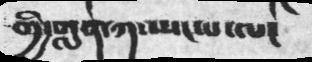གྱི་གླན་ཀ་ཡང་པ་ལ།
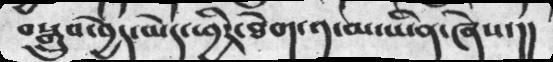བསྒྲུབ་བྱེད་མེད་ཕྱིར་ཐེག་༡་མ་ཡིན་ཞེས་།།
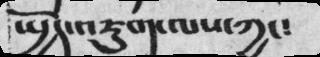སྤྱོད་འཇུག་ལས་ཀྱང༴
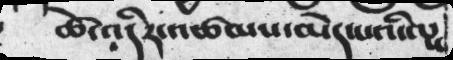ཚེ་འདིར་འཚམས་མེད་པའི་ལས
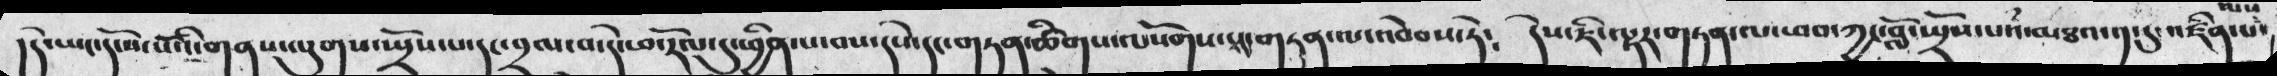།དེ་ཡང་དངོས་པོའི་གནས་ལུགས་ཡྲོས་པ་དང་བྲལ་བ་དེ་ཕ་རོལ་དུ་ཕྱིན་པ་བས་དཔེ་དང་གཏན་ཚིགས་ལསོགས་པས་གཏན་ལ་འབེབས་ཏེ༴   དེས་ཇི་ལྟར་གཏན་ལ་ཕབ་ཀྱང་བློ་ཡྲོས་པའཾ་མཐའ་༡་དུ་འཛིན་པ་ལས་
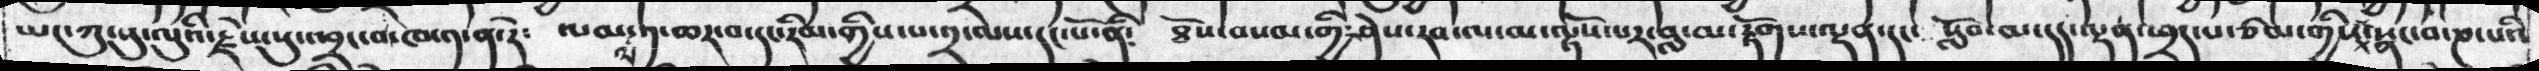ཡང་ཀུན་སུ་ལུའི་རྗེས་སུ་འབྲང་བ་ཁ་༡་ན་རེ་   ལམ་ལ་༡་ཆར་བ་དང་རིམ་གྱིས་པ་༢་མེས་དང་པོ་ནི༴   ཐོས་བསམ་གྱི་ཤེས་རབ་ལ་མ་ལྟོས་པར་བླ་མ་རྟོགས་ལྡན་དང་ སློབ་མ་དང་ལྡན་ཕྲད་པ་ཙམ་གྱིས་སྣང་བ་ཎ་པའི་
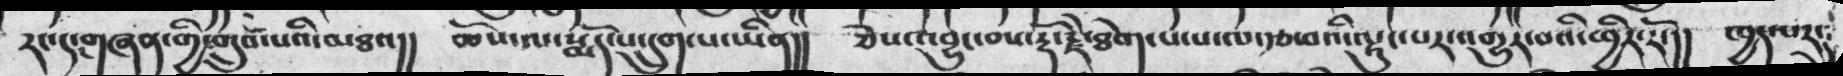རང་དང་གཞན་གྱི་གྲུབ་པའི་མཐའ།།  ཆོས་ལ་སྨོད་པ་དྲུག་པ་ཡིན།།   ཅེས་འབྱུང་བས་རྡོ་རྗེ་ཐེག་པ་པ་ལ་རྩ་བའི་ལྟུང་པར་འགྱུར་བའི་ཕྱིར་རོ་།།  ཁྱད་པར་
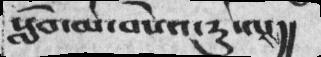སློམ་མ་བསེའ་རུ་ལས།།
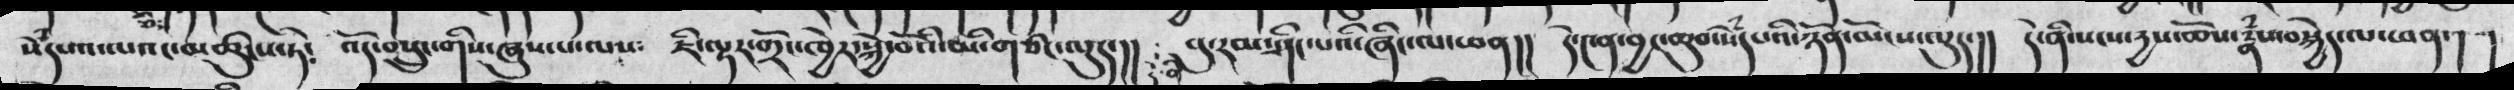སེཾདཔའ་ལའང་མཚུངས་ཏེ༴   འོད་བསྲུང་གིས་ཞུས་པ་ལས༴   ཇི་ལྟར་གྲོང་ཁྱེར་སྐྱེ་བོའི་མི་གཙང་ལུད་།།  དེ་ནི་བུ་རམ་ཤིང་པའི་ཞིང་ལ་ཕན།།  དེ་༤ན་བྱང་ཆུབ་སེཾདཔའི་ཉོན་མོངས་ལུད་།།   དེ་ནི་སངས་དྱས་ཆོས་རྣཾས་བསྐྱེད་ལ་ཕན་།
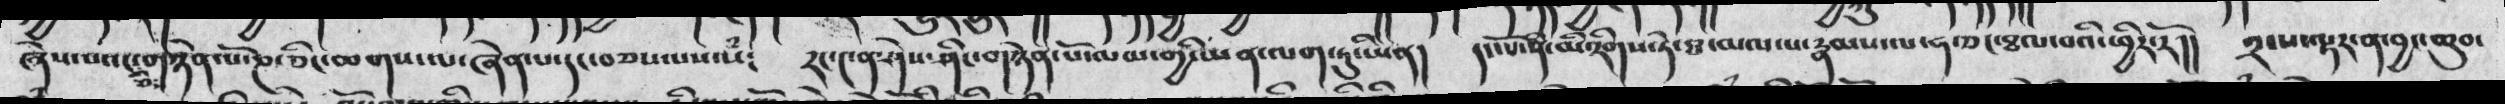ཞེས་པའང་ཅི་གཉེན་པོ་ཎ་ཅིང་ཆགས་ལ་ཞེན་པ་དང་བཅས་པས་སཾ༴   རང་༤ན་ཤེས་ཤིང་གཉེན་པོ་ལམ་གྱི་ཡན་ལག་ཏུ་ཡིན།  དང་པོ་ནི་མི་རིགས་ཏེ་ཐ་མལ་པ་རྣམས་ལ་ཧ་ཅང་ཐལ་བའི་ཕྱིར་རོ།། ༢་པ་ལྟར་ན་བྱང་ཆུབ་
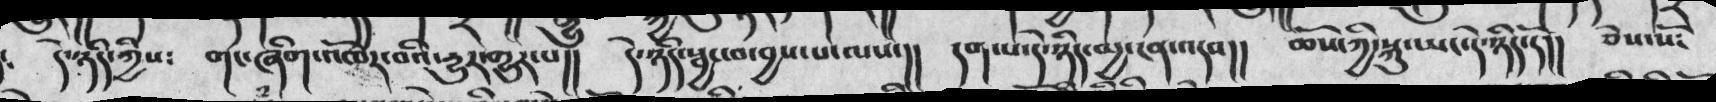དེ་ཉིད་ཀྱིས༴  གང་ཞིག་འོལར་བའི་རྱུར་གྱུར་པ།།  དེ་ཉིད་སྦྱང་པ་ལས་།།   དག་པ་དེ་ཉིད་མྱ་ངན་འདབ།།   ཆོས་ཀྱི་སྐུ་ཡང་དེ་ཉིད་དོ།།  ཅེས་སོ༴
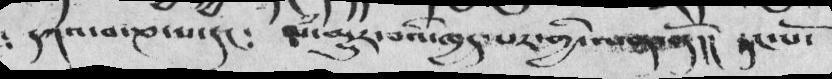དཀའ་བ་ཎ་པ་དང༴   མ་མྱུར་བའི་ཁྱད་པར་གྱི་ལན་ནོ།།  ཏང་པོ་
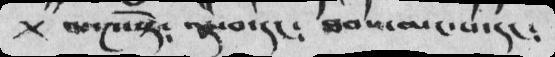མ་༩་སྟེ༴     ལྟ་བ་དང༴ ཐབས་མང་པ་དང༴
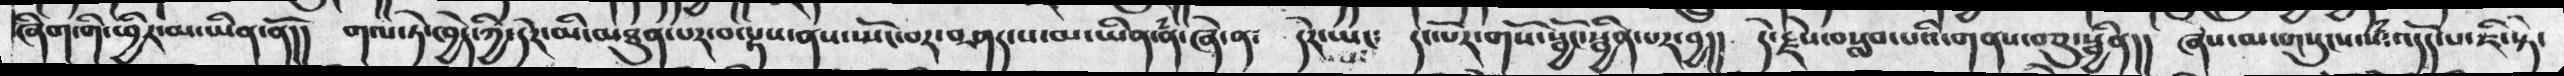ཞིག་གི་ཕྱིར་མ་ཡིན་ནོ།།   གལ་ཏེ་ཁྱེད་ཀྱི་དེར་མི་མཐུན་པར་བལྟས་ནས་སྤོང་བར་བཤད་པ་མ་ཏིན་ནཾ་ཞེ་ན༴  དེར་ཡང་པ   དང་པོར་གསོ་སྦྱོང་སྦྱིན་པར་བྱ།།  དེ་རྗེས་བསླབ་པའི་གནས་བཅུ་སྦྱིན།།  ཞས་མ་གསུངས་སཾ་འདོད་པ་ཇི་སྟེ་
